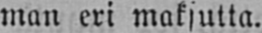man eri maksutta.
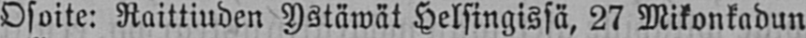Osoite: Raittiuden Ystäwät Helsingissä, 27 Mikonkadun
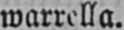warrella.
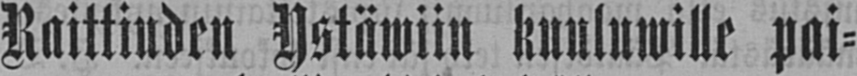Raittiuden Ystäwiin kuuluwille pai-
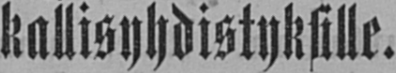kallisyhdistyksille.
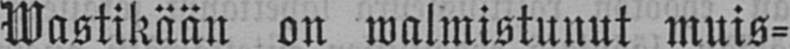wastikään on walmistunut muis-
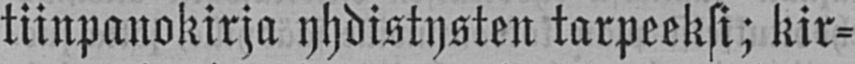tiinpanokirja yhdistysten tarpeeksi; kir-
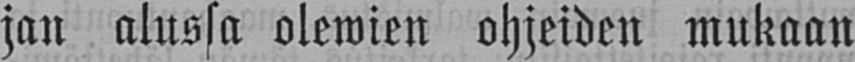jan alussa olewien ohjeiden mukaan
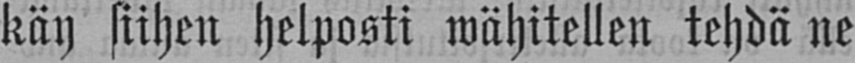käy siihen helposti wähitellen tehdä ne
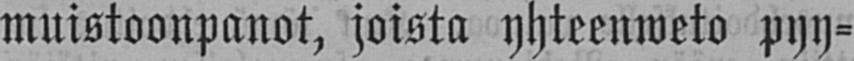muistoonpanot, joista yhteenweto pyy-
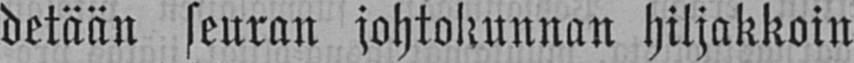detään seuran johtokunnan hiljakkoin
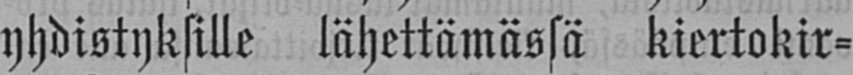yhdistyksille lähettämässä kiertokir-
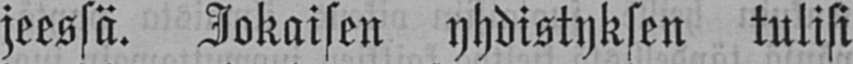jeessä. Jokaisen yhdistyksen tulisi
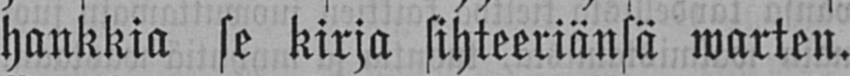hankkia se kirja sihteeriänsä warten.
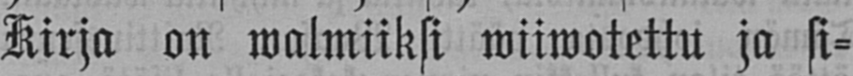Kirja on walmiiksi wiiwotettu ja si-
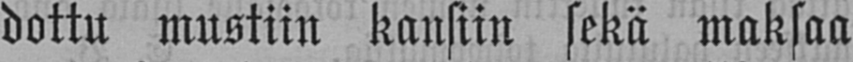dottu mustiin kansiin sekä maksaa
